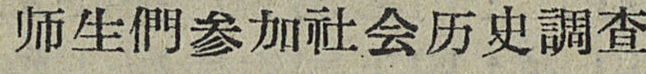师生們参加社会历史調查
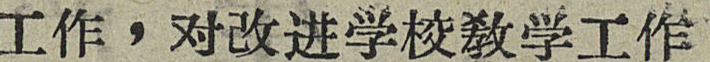工作，对改进学校敎学工作
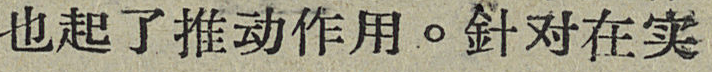也起了推动作用。針对在实
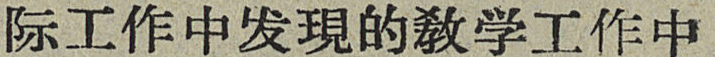际工作中发現的敎学工作中
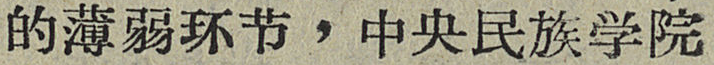的薄弱环节，中央民族学院
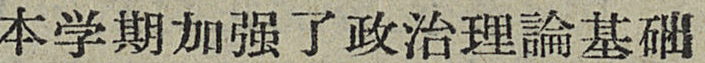本学期加强了政治理論基础
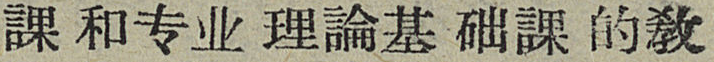課和专业理論基础課的敎
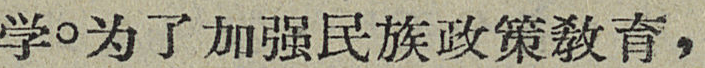学。为了加强民族政策敎育，
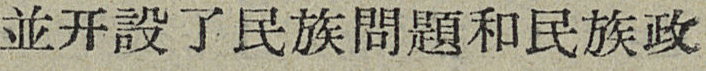並开設了民族問題和民族政
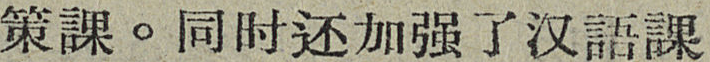策課。同时还加强了汉語課
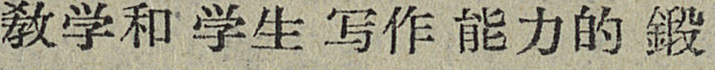敎学和学生协作能力的鍛
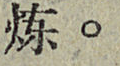炼。
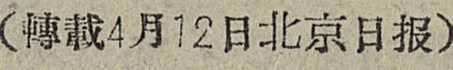（轉載4月12日北京日报）
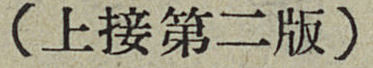（上接第二版）
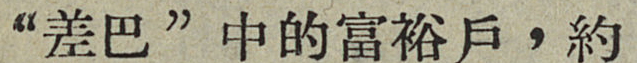“差巴”中的富裕戶，約
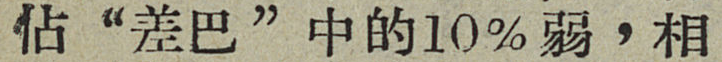佔“差巴”中的10％弱，相
